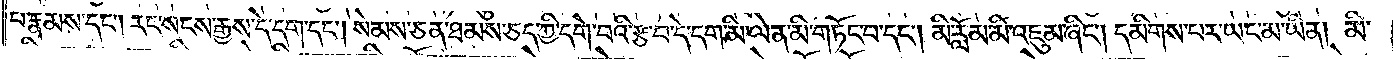པ་རྣམས་དང༌། རང་སངས་རྒྱས་དེ་དག་དང༌། སེམས་ཅན་ཐམས་ཅད་ཀྱི་དགེ་བའི་རྩ་བ་དེ་དག་མི་ལེན་མི་གཏོང་བ་དང༌། མི་རློམ་མི་འཇུམ་ཞིང༌། དམིགས་པར་ཡང་མ་ཡིན། མི་
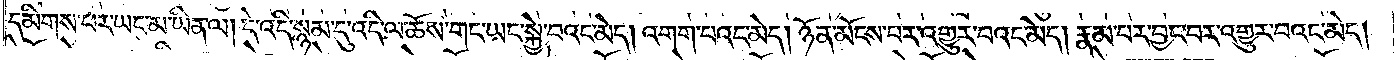དམིགས་པར་ཡང་མ་ཡིན་ལ། དེ་འདི་སྙམ་དུ་འདི་ལ་ཆོས་གང་ཡང་སྐྱེ་བའང་མེད། འགག་པའང་མེད། ཉོན་མོངས་པར་འགྱུར་བའང་མེད། རྣམ་པར་བྱང་བར་འགྱུར་བའང་མེད།
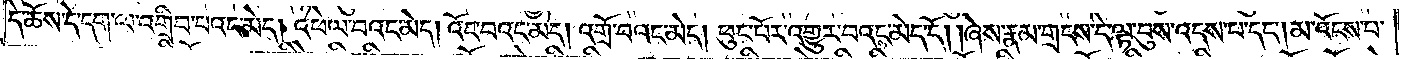དེ་ཆོས་དེ་དག་ལ་འགྲིབ་པའང་མེད། འཕེལ་བའང་མེད། འོང་བའང་མེད། འགྲོ་བའང་མེད། ཕུང་པོར་འགྱུར་བའང་མེད་དོ། །ཞེས་རྣམ་གྲངས་དེ་ལྟ་བུས་འདས་པ་དང༌། མ་འོངས་པ་
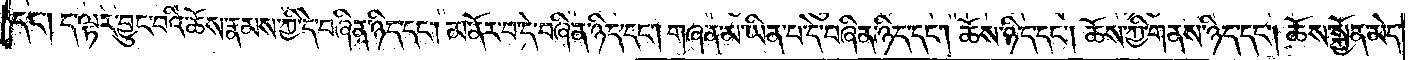དང༌། ད་ལྟར་བྱུང་བའི་ཆོས་རྣམས་ཀྱི་དེ་བཞིན་ཉིད་དང༌། མ་ནོར་བ་དེ་བཞིན་ཉིད་དང༌། གཞན་མ་ཡིན་པ་དེ་བཞིན་ཉིད་དང༌། ཆོས་ཉིད་དང༌། ཆོས་ཀྱི་གནས་ཉིད་དང༌། ཆོས་སྐྱོན་མེད་
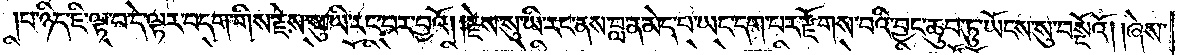པ་ཉིད་ཇི་ལྟ་བ་དེ་ལྟར་བདག་གིས་རྗེས་སུ་ཡི་རང་བར་བྱའོ། །རྗེས་སུ་ཡི་རང་ནས་བླ་ན་མེད་པ་ཡང་དག་པར་རྫོགས་པའི་བྱང་ཆུབ་ཏུ་ཡོངས་སུ་བསྔོའོ། །ཞེས་
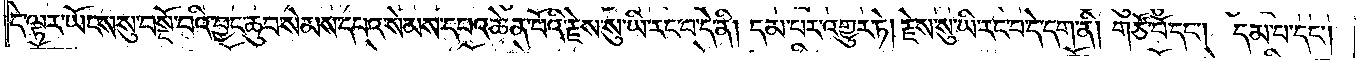དེ་ལྟར་ཡོངས་སུ་བསྔོ་བའི་བྱང་ཆུབ་སེམས་དཔའ་སེམས་དཔའ་ཆེན་པོའི་རྗེས་སུ་ཡི་རང་བ་དེ་ནི། དམ་པར་འགྱུར་ཏེ། རྗེས་སུ་ཡི་རང་བ་དེ་དག་ནི། གཙོ་བོ་དང༌། དམ་པ་དང༌།
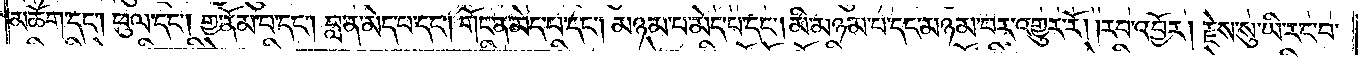མཆོག་དང༌། ཕུལ་དང༌། གྱ་ནོམ་པ་དང༌། བླ་ན་མེད་པ་དང༌། གོང་ན་མེད་པ་དང༌། མཉམ་པ་མེད་པ་དང༌། མི་མཉམ་པ་དང་མཉམ་པར་འགྱུར་རོ། །རབ་འབྱོར། རྗེས་སུ་ཡི་རང་བ་
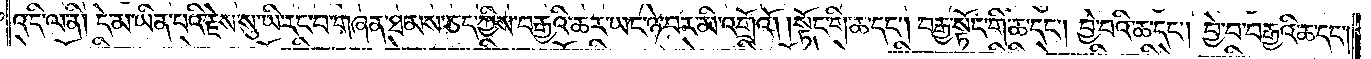འདི་ལ་ནི། དེ་མ་ཡིན་པའི་རྗེས་སུ་ཡི་རང་བ་གཞན་ཐམས་ཅད་ཀྱིས་བརྒྱའི་ཆར་ཡང་ཉེ་བར་མི་འགྲོའོ། །སྟོང་གི་ཆ་དང༌། བརྒྱ་སྟོང་གི་ཆ་དང༌། བྱེ་བའི་ཆ་དང༌། བྱེ་བ་བརྒྱའི་ཆ་དང༌།
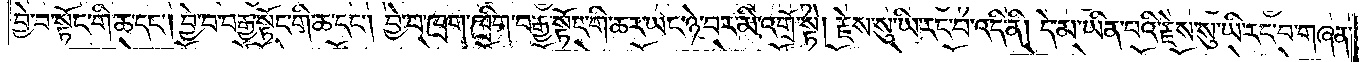བྱེ་བ་སྟོང་གི་ཆ་དང༌། བྱེ་བ་བརྒྱ་སྟོང་གི་ཆ་དང༌། བྱེ་བ་ཁྲག་ཁྲིག་བརྒྱ་སྟོང་གི་ཆར་ཡང་ཉེ་བར་མི་འགྲོ་སྟེ། རྗེས་སུ་ཡི་རང་བ་འདི་ནི། དེ་མ་ཡིན་པའི་རྗེས་སུ་ཡི་རང་བ་གཞན་
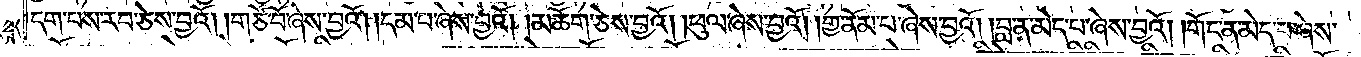དག་པས་རབ་ཅེས་བྱའོ། །གཙོ་བོ་ཞེས་བྱའོ། །དམ་པ་ཞེས་བྱའོ། །མཆོག་ཅེས་བྱའོ། །ཕུལ་ཞེས་བྱའོ། །གྱ་ནོམ་པ་ཞེས་བྱའོ། །བླ་ན་མེད་པ་ཞེས་བྱའོ། །གོང་ན་མེད་པ་ཞེས་
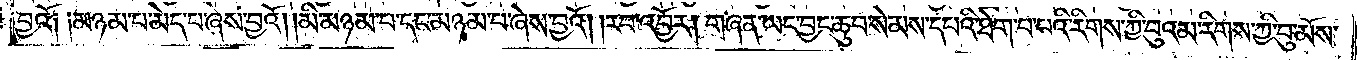བྱའོ༑ ༑མཉམ་པ་མེད་པ་ཞེས་བྱའོ། །མི་མཉམ་པ་དང་མཉམ་པ་ཞེས་བྱའོ། །རབ་འབྱོར། གཞན་ཡང་བྱང་ཆུབ་སེམས་དཔའི་ཐེག་པ་པའི་རིགས་ཀྱི་བུའམ་རིགས་ཀྱི་བུ་མོས་
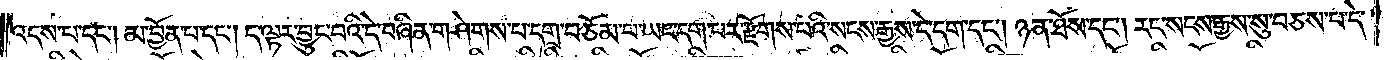འདས་པ་དང༌། མ་བྱོན་པ་དང༌། ད་ལྟར་བྱུང་བའི་དེ་བཞིན་གཤེགས་པ་དགྲ་བཅོམ་པ་ཡང་དག་པར་རྫོགས་པའི་སངས་རྒྱས་དེ་དག་དང༌། ཉན་ཐོས་དང༌། རང་སངས་རྒྱས་སུ་བཅས་པ་དེ་
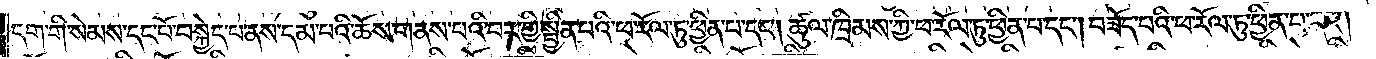དག་གིས་སེམས་དང་པོ་བསྐྱེད་པ་ནས་དམ་པའི་ཆོས་གནས་པའི་བར་གྱི་སྦྱིན་པའི་ཕ་རོལ་ཏུ་ཕྱིན་པ་དང༌། ཚུལ་ཁྲིམས་ཀྱི་ཕ་རོལ་ཏུ་ཕྱིན་པ་དང༌། བཟོད་པའི་ཕ་རོལ་ཏུ་ཕྱིན་པ་དང༌།
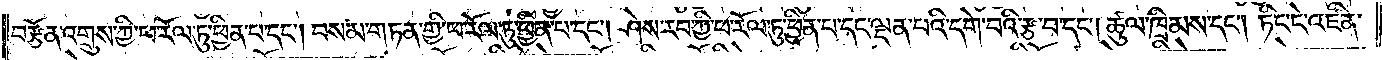བརྩོན་འགྲུས་ཀྱི་ཕ་རོལ་ཏུ་ཕྱིན་པ་དང༌། བསམ་གཏན་གྱི་ཕ་རོལ་ཏུ་ཕྱིན་པ་དང༌། ཤེས་རབ་ཀྱི་ཕ་རོལ་ཏུ་ཕྱིན་པ་དང་ལྡན་པའི་དགེ་བའི་རྩ་བ་དང༌། ཚུལ་ཁྲིམས་དང༌། ཏིང་ངེ་འཛིན་
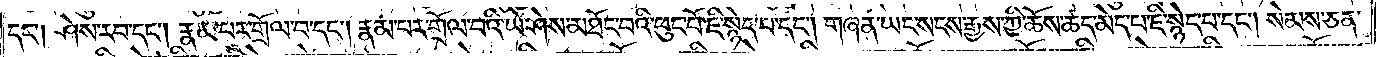དང༌། ཤེས་རབ་དང༌། རྣམ་པར་གྲོལ་བ་དང༌། རྣམ་པར་གྲོལ་བའི་ཡེ་ཤེས་མཐོང་བའི་ཕུང་པོ་ཇི་སྙེད་པ་དང༌། གཞན་ཡང་སངས་རྒྱས་ཀྱི་ཆོས་ཚད་མེད་པ་ཇི་སྙེད་པ་དང༌། སེམས་ཅན་
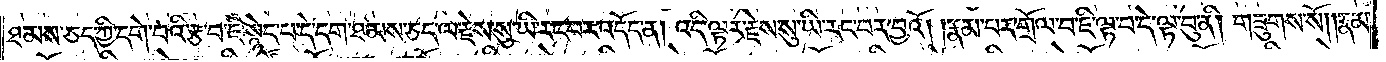ཐམས་ཅད་ཀྱི་དགེ་བའི་རྩ་བ་ཇི་སྙེད་པ་དེ་དག་ཐམས་ཅད་ལ་རྗེས་སུ་ཡི་རང་བར་འདོད་ན། འདི་ལྟར་རྗེས་སུ་ཡི་རང་བར་བྱའོ། །རྣམ་པར་གྲོལ་བ་ཇི་ལྟ་བ་དེ་ལྟ་བུ་ནི། གཟུགས་སོ། །རྣམ་
